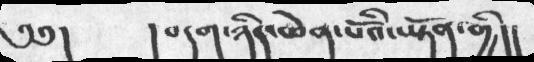༄༅།  །བདག་ཉིད་ཆེན་པོའི་ཡྟོན་གྱི།།
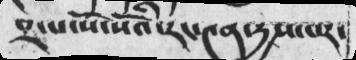༢་པ་སོ་སོའི་རང་༤ན་དྱས་པར་
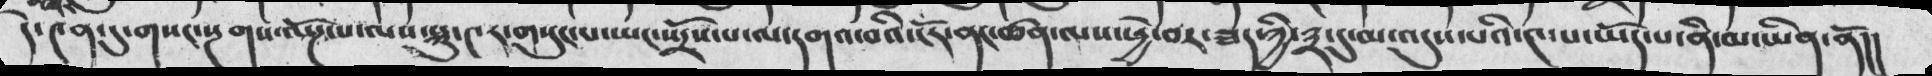དེ་༤ན་དུ་གསང་སྔགས་ལོཌ་པ་ལས་སྐུ་༤ར་གསུང་པ་ཡང་སྤྲོས་པ་ལ་དགའ་བའི་ངོར་ནང་ཚན་ལས་ཕྱེ་བར་ཟད་ཀྱི་༣་དུ་མ་འདུས་པའི་༤་པ་ཡོད་པ་ནི་མ་ཡིན་ནོ།།
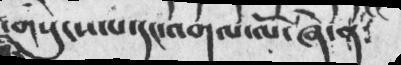གསུངས་པ་དང་འགལ་ལོ་ཞེ་ན༴
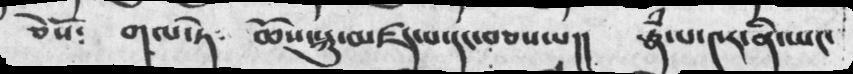ཅེསོ༴   གལ་ཏེ༴   ཆོས་སྐུ་མཛད་པ་དང་བཅས་པ།།   རྣཾ་པ་༤ར་ནི་ཡང་
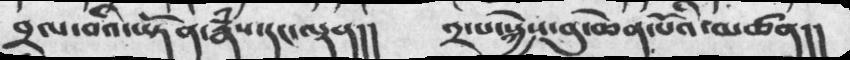བྲལ་བའི་ཡྟོན་རྣཾས་དང་ལྡན།།    ༢་པ་སྐྱེས་བུ་ཆེན་པོའི་མཚན།།
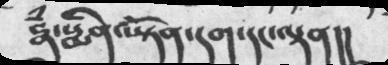རྣཾ་སྨིན་ཡྟོན་དག་དང་ལྡན།།
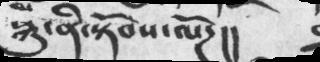སྐུ་ནི་སྟོབས་ལོཌ།།
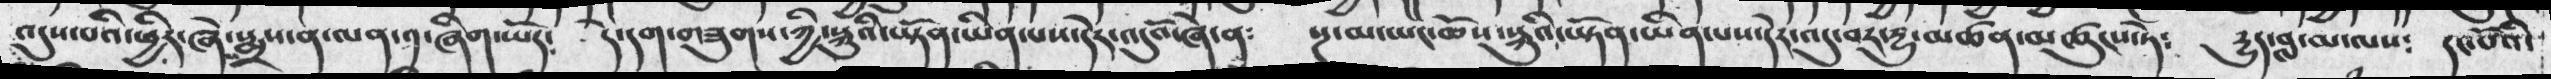འདུས་པའི་ཕྱིར་ཞེས་སྨྲས་ན་ལན་༡་ཞིག་ཡོད༴   དེ་དག་གཟུགས་ཀྱི་སྐུའི་ཡྟོན་ཡིན་པས་དེར་འདུའོ་ཞེ་ན༴   སྔ་མ་ཡང་ཆོས་སྐུའི་ཡྟོན་ཡིན་པས་དེར་འདུ་བར་དྱུ་མཚན་མཚུངས་ཏེ༴   དྱུད་བླ་མ་ལས༴   དང་པོའི་
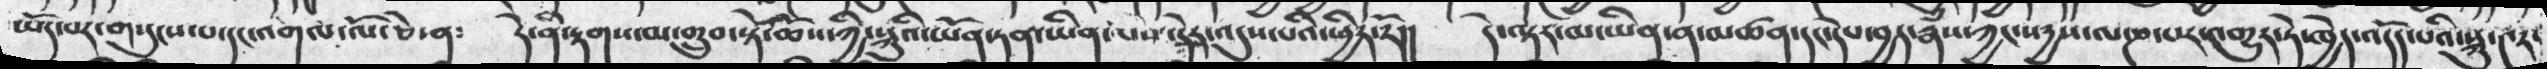ཡོད་པར་གསུངས་པ་དང་འགལ་ལོ་ཅེ་ན༴   དེ་ནི་རྟགས་མ་གྲུབ་སྟེ་ཆོས་ཀྱི་སྐུའི་ཡོན་ཏན་ཡིན་པས་དེར་འདུས་པའི་ཕྱིར་རོ།།  དེ་ལྟར་མ་ཡིན་ན་མཚན་དང་དཔེ་བྱད་རྣཾས་ཀྱང་སདྱས་ལ་ཎ་པར་འགྱུར་ཏེ་ཁྱེད་འདོད་པའི་སྐུ་༤ར་
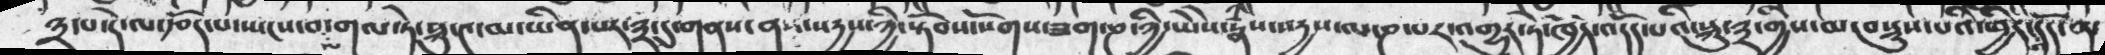༣་པ་དེ་ལ་རྩོད་པ་སྤངས་བ་ལ་གལ་ཏེ་སྐུ༤་མ་ཡིན་པར་༣་དུ་གནས་ན་སདྱས་ཀྱི་སྟོབས་སོགས་ཟག་ཎ་ཀྱི་ཡེེས་རྣཾས་སདྱས་ལ་ཎ་པར་འགྱུར་ཏེ་ཁྱོད་འདོད་པའི་སྐུ་༣་གྱིས་མང་བསྡུས་པའི་ཕྱིར་འདོད་ན་
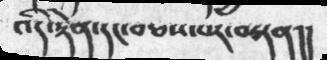འདི་རྟེན་དང་བཅས་པར་བསྟན།།
